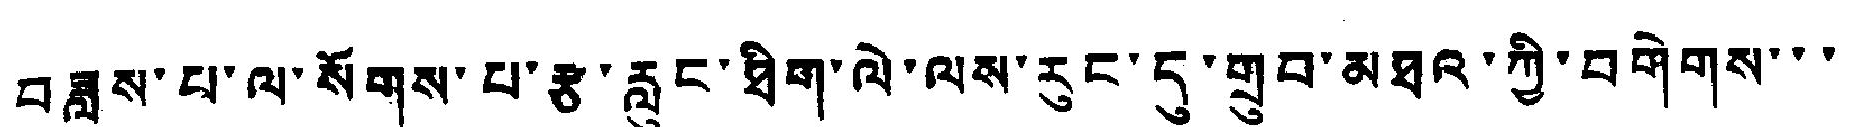བཟླས་པ་ལ་སོགས་པ་རྩ་རླུང་ཐིག་ལེ་ལས་རུང་དུ་གྲུབ་མཐའ་ཀྱི་བགེགས་་་
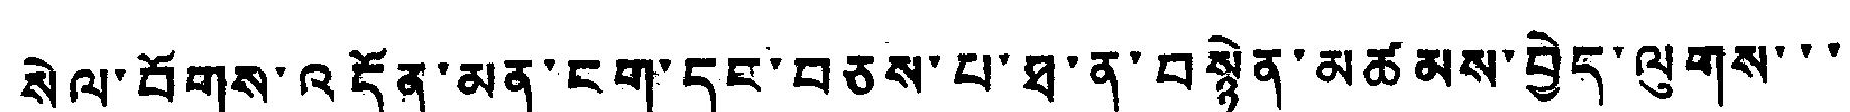སེལ་བོགས་འདོན་མན་ངག་དང་བཅས་པ་ཐ་ན་བསྙེན་མཚམས་བྱེད་ལུགས་་་
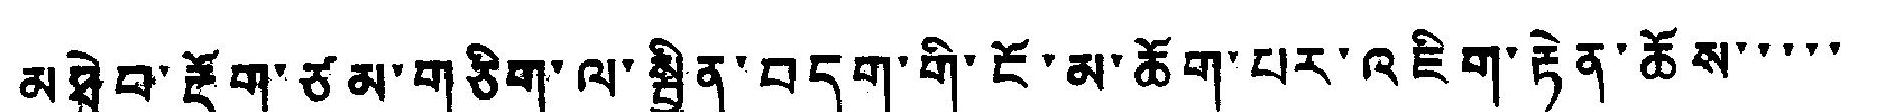མཐེབ་རྡོག་ཙམ་གཅིག་ལ་སྦྱིན་བདག་གི་ངོ་མ་ཆོག་པར་འཇིག་རྟེན་ཆོས་་་་་
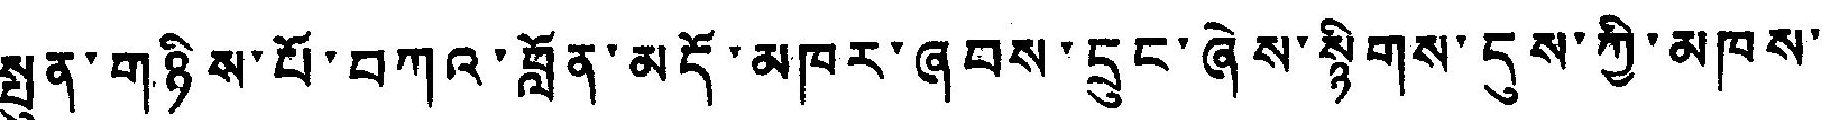སྤུན་གཉིས་པོ་བཀའ་བློན་མདོ་མཁར་ཞབས་དྲུང་ཞེས་སྙིགས་དུས་ཀྱི་མཁས་
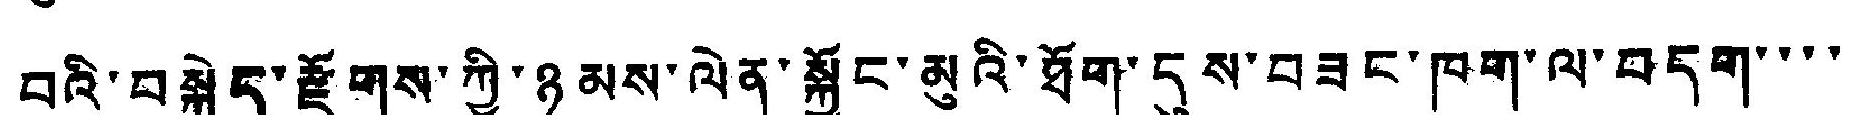བའི་བསྐྱེད་རྫོགས་ཀྱི་ཉམས་ལེན་སྐྱོང་མུའི་ཐོག་དུས་བཟང་ཁག་ལ་བདག་་་་
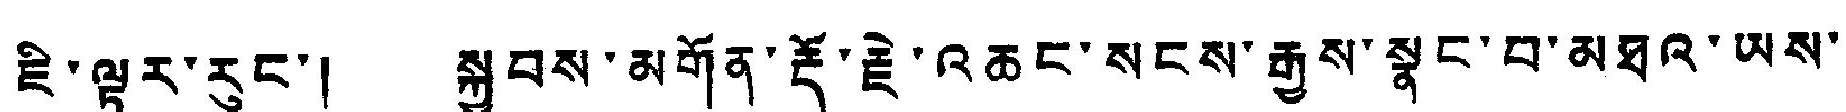ཇི་ལྟར་རུང་། སྐྱབས་མགོན་རྡོ་རྗེ་འཆང་སངས་རྒྱས་སྣང་བ་མཐའ་ཡས་
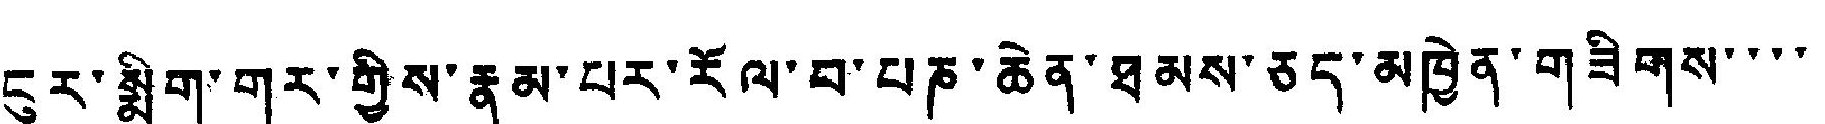ངུར་སྨྲིག་གར་གྱིས་རྣམ་པར་རོལ་བ་པཎ་ཆེན་ཐམས་ཅད་མཁྱེན་གཟིགས་་་་
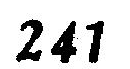241
